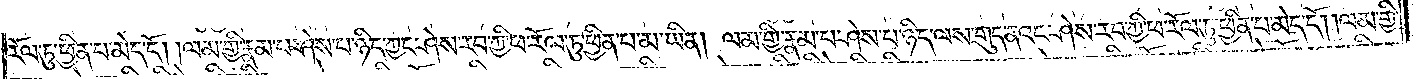རོལ་ཏུ་ཕྱིན་པ་མེད་དོ། །ལམ་གྱི་རྣམ་པ་ཤེས་པ་ཉིད་ཀྱང་ཤེས་རབ་ཀྱི་ཕ་རོལ་ཏུ་ཕྱིན་པ་མ་ཡིན། ལམ་གྱི་རྣམ་པ་ཤེས་པ་ཉིད་ལས་གུད་ནའང་ཤེས་རབ་ཀྱི་ཕ་རོལ་ཏུ་ཕྱིན་པ་མེད་དོ། །ལམ་གྱི་
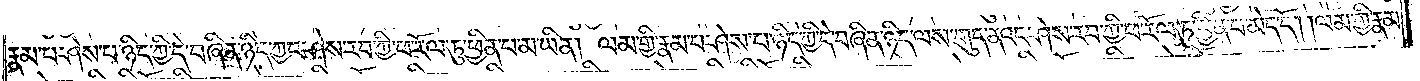རྣམ་པ་ཤེས་པ་ཉིད་ཀྱི་དེ་བཞིན་ཉིད་ཀྱང་ཤེས་རབ་ཀྱི་ཕ་རོལ་ཏུ་ཕྱིན་པ་མ་ཡིན། ལམ་གྱི་རྣམ་པ་ཤེས་པ་ཉིད་ཀྱི་དེ་བཞིན་ཉིད་ལས་གུད་ནའང་ཤེས་རབ་ཀྱི་ཕ་རོལ་ཏུ་ཕྱིན་པ་མེད་དོ། །ལམ་གྱི་རྣམ་
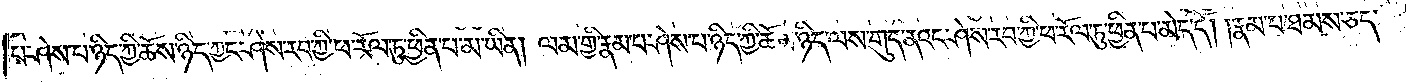པ་ཤེས་པ་ཉིད་ཀྱི་ཆོས་ཉིད་ཀྱང་ཤེས་རབ་ཀྱི་ཕ་རོལ་ཏུ་ཕྱིན་པ་མ་ཡིན། ལམ་གྱི་རྣམ་པ་ཤེས་པ་ཉིད་ཀྱི་ཆོས་ཉིད་ལས་གུད་ནའང་ཤེས་རབ་ཀྱི་ཕ་རོལ་ཏུ་ཕྱིན་པ་མེད་དོ། །རྣམ་པ་ཐམས་ཅད་
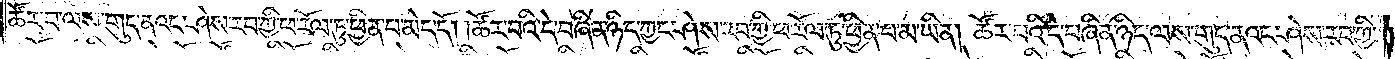ཚོར་བ་ལས་གུད་ནའང་ཤེས་རབ་ཀྱི་ཕ་རོལ་ཏུ་ཕྱིན་པ་མེད་དོ། །ཚོར་བའི་དེ་བཞིན་ཉིད་ཀྱང་ཤེས་རབ་ཀྱི་ཕ་རོལ་ཏུ་ཕྱིན་པ་མ་ཡིན། ཚོར་བའི་དེ་བཞིན་ཉིད་ལས་གུད་ནའང་ཤེས་རབ་ཀྱི་
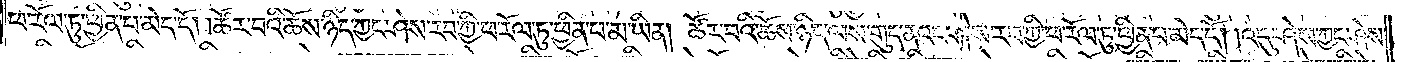ཕ་རོལ་ཏུ་ཕྱིན་པ་མེད་དོ། །ཚོར་བའི་ཆོས་ཉིད་ཀྱང་ཤེས་རབ་ཀྱི་ཕ་རོལ་ཏུ་ཕྱིན་པ་མ་ཡིན། ཚོར་བའི་ཆོས་ཉིད་ལས་གུད་ནའང་ཤེས་རབ་ཀྱི་ཕ་རོལ་ཏུ་ཕྱིན་པ་མེད་དོ། །འདུ་ཤེས་ཀྱང་ཤེས་
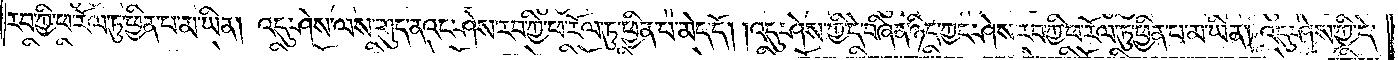རབ་ཀྱི་ཕ་རོལ་ཏུ་ཕྱིན་པ་མ་ཡིན། འདུ་ཤེས་ལས་གུད་ནའང་ཤེས་རབ་ཀྱི་ཕ་རོལ་ཏུ་ཕྱིན་པ་མེད་དོ། །འདུ་ཤེས་ཀྱི་དེ་བཞིན་ཉིད་ཀྱང་ཤེས་རབ་ཀྱི་ཕ་རོལ་ཏུ་ཕྱིན་པ་མ་ཡིན། འདུ་ཤེས་ཀྱི་དེ་
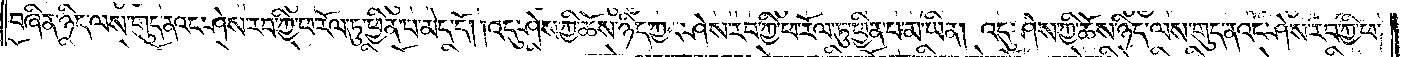བཞིན་ཉིད་ལས་གུད་ནའང་ཤེས་རབ་ཀྱི་ཕ་རོལ་ཏུ་ཕྱིན་པ་མེད་དོ། །འདུ་ཤེས་ཀྱི་ཆོས་ཉིད་ཀྱང་ཤེས་རབ་ཀྱི་ཕ་རོལ་ཏུ་ཕྱིན་པ་མ་ཡིན། འདུ་ཤེས་ཀྱི་ཆོས་ཉིད་ལས་གུད་ནའང་ཤེས་རབ་ཀྱི་ཕ་
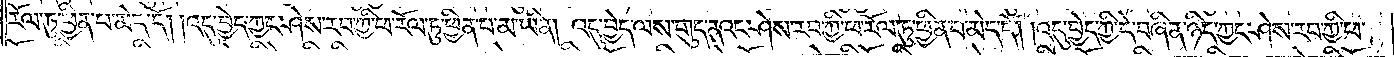རོལ་ཏུ་ཕྱིན་པ་མེད་དོ། །འདུ་བྱེད་ཀྱང་ཤེས་རབ་ཀྱི་ཕ་རོལ་ཏུ་ཕྱིན་པ་མ་ཡིན། འདུ་བྱེད་ལས་གུད་ནའང་ཤེས་རབ་ཀྱི་ཕ་རོལ་ཏུ་ཕྱིན་པ་མེད་དོ། །འདུ་བྱེད་ཀྱི་དེ་བཞིན་ཉིད་ཀྱང་ཤེས་རབ་ཀྱི་ཕ་
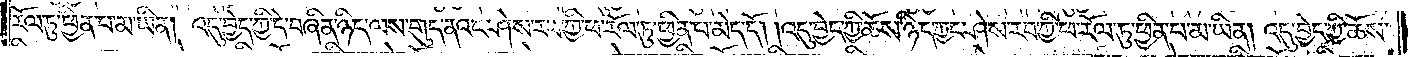རོལ་ཏུ་ཕྱིན་པ་མ་ཡིན། འདུ་བྱེད་ཀྱི་དེ་བཞིན་ཉིད་ལས་གུད་ནའང་ཤེས་རབ་ཀྱི་ཕ་རོལ་ཏུ་ཕྱིན་པ་མེད་དོ། །འདུ་བྱེད་ཀྱི་ཆོས་ཉིད་ཀྱང་ཤེས་རབ་ཀྱི་ཕ་རོལ་ཏུ་ཕྱིན་པ་མ་ཡིན། འདུ་བྱེད་ཀྱི་ཆོས་
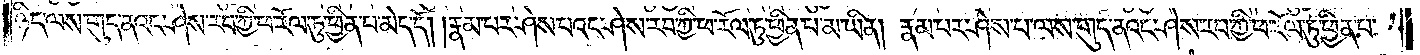ཉིད་ལས་གུད་ནའང་ཤེས་རབ་ཀྱི་ཕ་རོལ་ཏུ་ཕྱིན་པ་མེད་དོ། །རྣམ་པར་ཤེས་པའང་ཤེས་རབ་ཀྱི་ཕ་རོལ་ཏུ་ཕྱིན་པ་མ་ཡིན། རྣམ་པར་ཤེས་པ་ལས་གུད་ནའང་ཤེས་རབ་ཀྱི་ཕ་རོལ་ཏུ་ཕྱིན་པ་
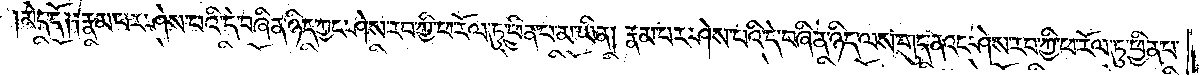མེད་དོ། །རྣམ་པར་ཤེས་པའི་དེ་བཞིན་ཉིད་ཀྱང་ཤེས་རབ་ཀྱི་ཕ་རོལ་ཏུ་ཕྱིན་པ་མ་ཡིན། རྣམ་པར་ཤེས་པའི་དེ་བཞིན་ཉིད་ལས་གུད་ནའང་ཤེས་རབ་ཀྱི་ཕ་རོལ་ཏུ་ཕྱིན་པ་
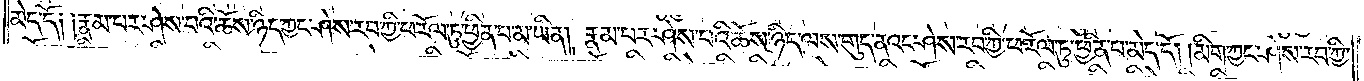མེད་དོ། །རྣམ་པར་ཤེས་པའི་ཆོས་ཉིད་ཀྱང་ཤེས་རབ་ཀྱི་ཕ་རོལ་ཏུ་ཕྱིན་པ་མ་ཡིན། རྣམ་པར་ཤེས་པའི་ཆོས་ཉིད་ལས་གུད་ནའང་ཤེས་རབ་ཀྱི་ཕ་རོལ་ཏུ་ཕྱིན་པ་མེད་དོ། །མིག་ཀྱང་ཤེས་རབ་ཀྱི་
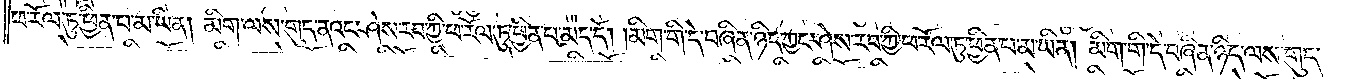ཕ་རོལ་ཏུ་ཕྱིན་པ་མ་ཡིན། མིག་ལས་གུད་ནའང་ཤེས་རབ་ཀྱི་ཕ་རོལ་ཏུ་ཕྱིན་པ་མེད་དོ། །མིག་གི་དེ་བཞིན་ཉིད་ཀྱང་ཤེས་རབ་ཀྱི་ཕ་རོལ་ཏུ་ཕྱིན་པ་མ་ཡིན། མིག་གི་དེ་བཞིན་ཉིད་ལས་གུད་
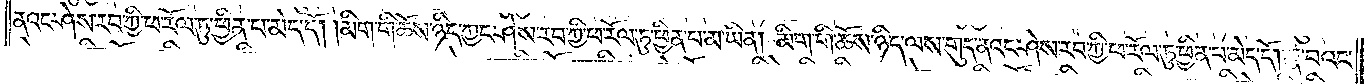ནའང་ཤེས་རབ་ཀྱི་ཕ་རོལ་ཏུ་ཕྱིན་པ་མེད་དོ། །མིག་གི་ཆོས་ཉིད་ཀྱང་ཤེས་རབ་ཀྱི་ཕ་རོལ་ཏུ་ཕྱིན་པ་མ་ཡིན། མིག་གི་ཆོས་ཉིད་ལས་གུད་ནའང་ཤེས་རབ་ཀྱི་ཕ་རོལ་ཏུ་ཕྱིན་པ་མེད་དོ། །རྣ་བའང་
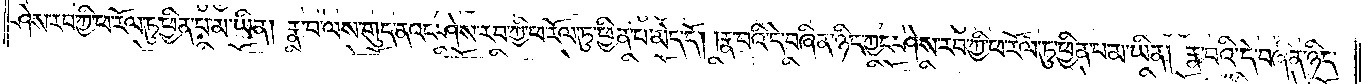ཤེས་རབ་ཀྱི་ཕ་རོལ་ཏུ་ཕྱིན་པ་མ་ཡིན། རྣ་བ་ལས་གུད་ནའང་ཤེས་རབ་ཀྱི་ཕ་རོལ་ཏུ་ཕྱིན་པ་མེད་དོ། །རྣ་བའི་དེ་བཞིན་ཉིད་ཀྱང་ཤེས་རབ་ཀྱི་ཕ་རོལ་ཏུ་ཕྱིན་པ་མ་ཡིན། རྣ་བའི་དེ་བཞིན་ཉིད་
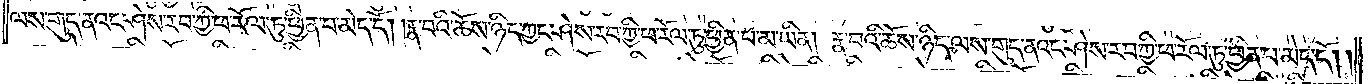ལས་གུད་ནའང་ཤེས་རབ་ཀྱི་ཕ་རོལ་ཏུ་ཕྱིན་པ་མེད་དོ། །རྣ་བའི་ཆོས་ཉིད་ཀྱང་ཤེས་རབ་ཀྱི་ཕ་རོལ་ཏུ་ཕྱིན་པ་མ་ཡིན། རྣ་བའི་ཆོས་ཉིད་ལས་གུད་ནའང་ཤེས་རབ་ཀྱི་ཕ་རོལ་ཏུ་ཕྱིན་པ་མེད་དོ། །
